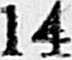14
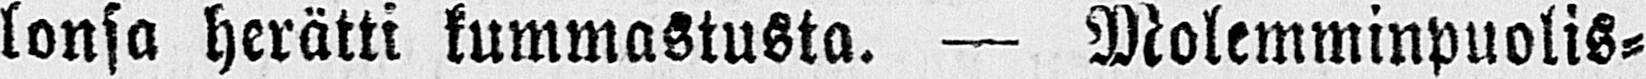lonsa herätti kummastusta. — Molemminpuolis-
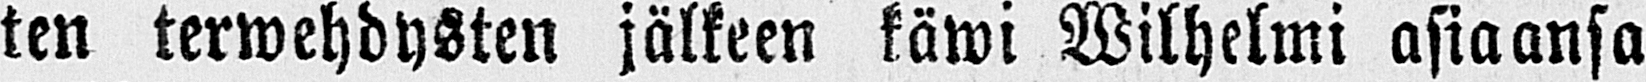ten terwehdysten jälkeen käwi Wilhelmi asiaansa
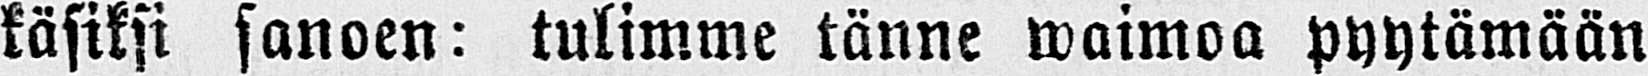käsiksi sanoen: tulimme tänne waimoa pyytämään
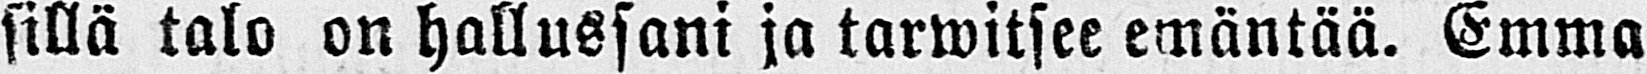sillä talo on hallussani ja tarwitsee emäntää. Emma
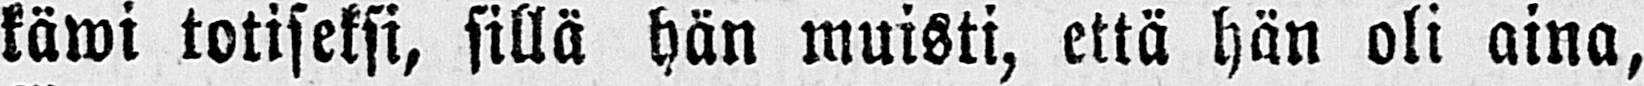käwi totiseksi, sillä hän muisti, että hän oli aina,
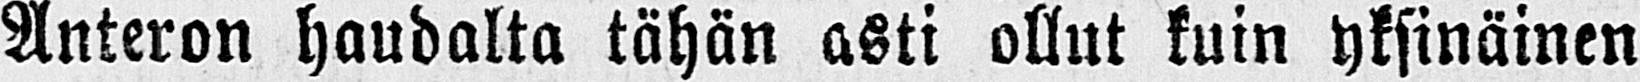Anteron haudalta tähän asti ollut kuin yksinäinen
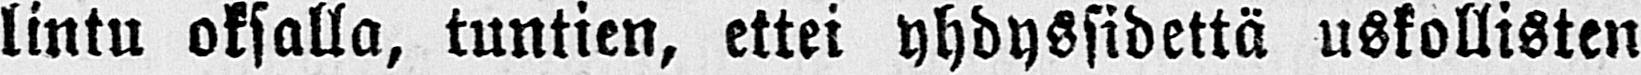lintu oksalla, tuntien, ettei yhdyssidettä uskollisten
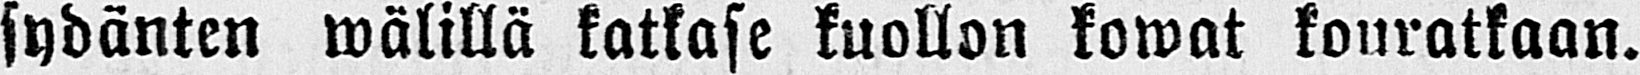sydänten wälillä katkase kuollon kowat kouratkaan.
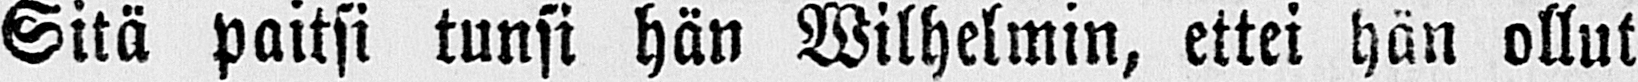Sitä paitsi tunsi hän Wilhelmin, ettei hän ollut
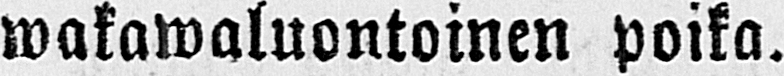wakawaluontoinen poika.
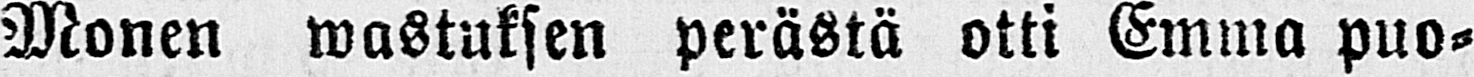Monen wastuksen perästä otti Emma puo-
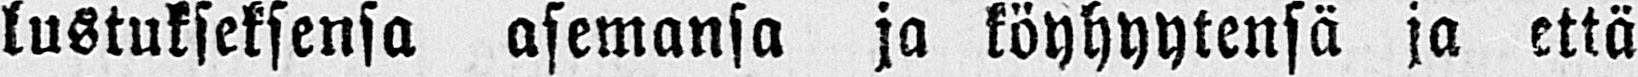lustuksiksensa asemansa ja köyhyytensä ja että
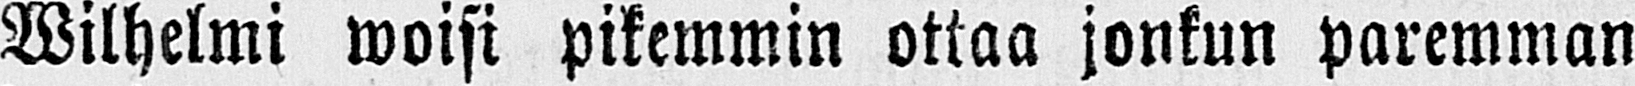Wilhelmi woisi pikemmin ottaa jonkun paremman
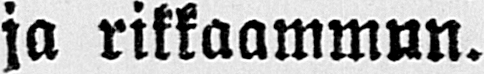ja rikkaammnn.
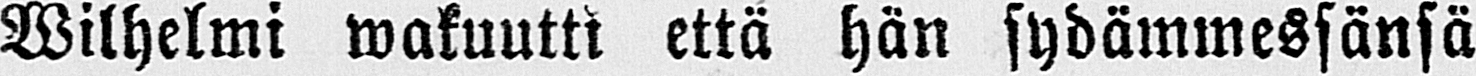Wilhelmi wakuutti että hän sydämmessänsä
